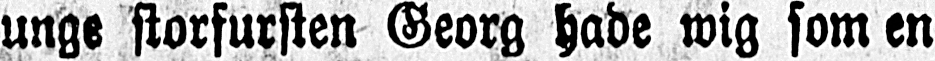unge storfursten Georg hade wig som en
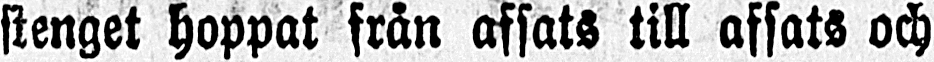stenget hoppat från afsats till afsats och
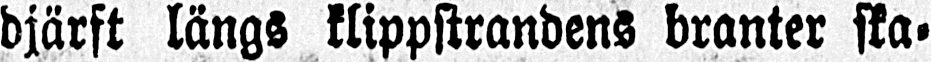bjärft längs klippstrandens branter ska-
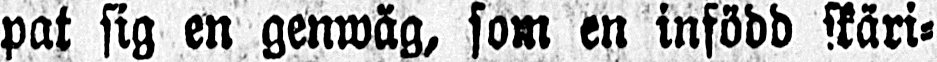pat sig en genwäg, som en infödd skäri-
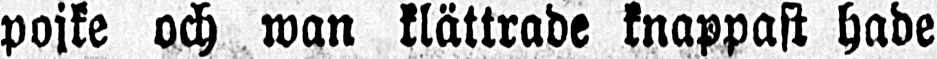pojke och wan klättrade knappast hade
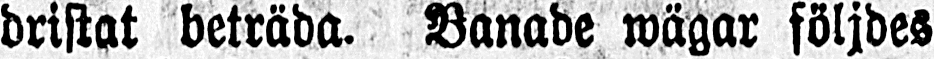dristat beträda. Banade wägar följdes
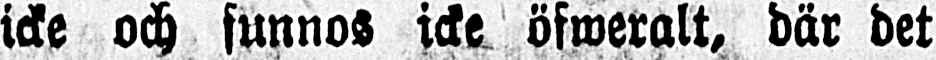icke och funnos icke öfweralt, där det
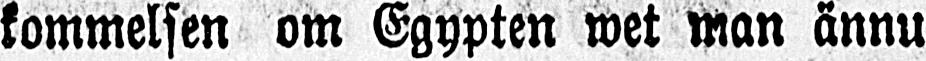kommelsen om Egypten wet man ännu
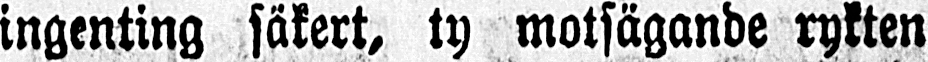ingenting säkert, ty motsägande rykten
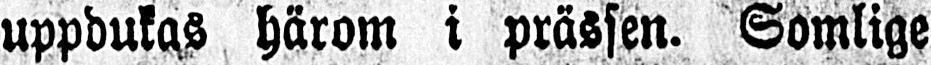uppdukas härom i prässen. Somlige
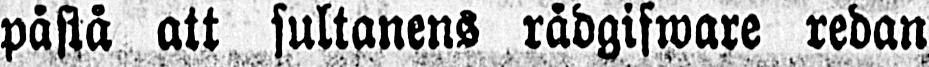påstå att sultanens rådgifware redan
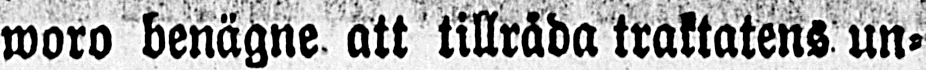woro benägne att tillråda traktatens un-
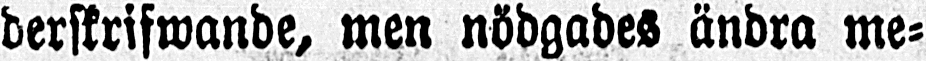derskrifwande, men nödgades ändra me-
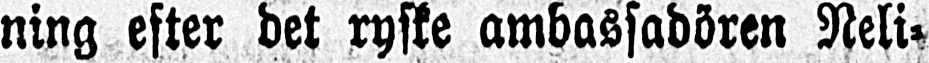ning efter det ryske ambassadören Neli-
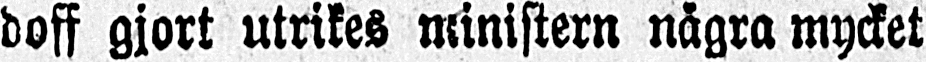doff gjort utrikes ministern några mycket
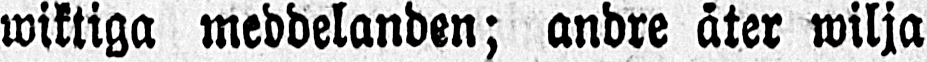wiktiga meddelanden; andre åter wilja
